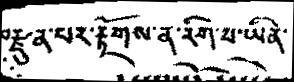བརྫུན་པར་རྟོགས་ན་རིག་པ་ཡིན་
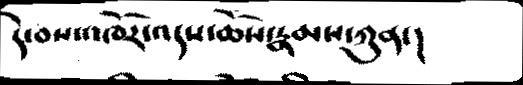དེ་བས་འཁོར་འདས་ཆོས་རྣམས་ཀུན་།
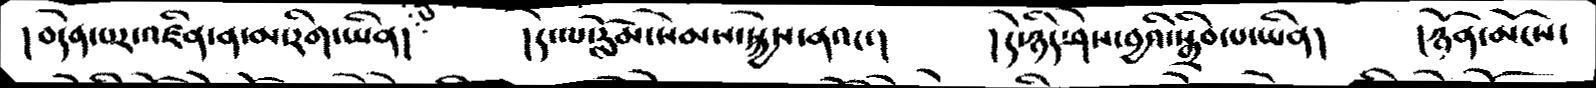།བདེན་པར་འཛིན་ན་མ་རིག་ཡིན།    །དེ་ལ་རློམ་སེམས་སྐྱེས་ནའང་།     །དེ་ཉིད་ཤེས་བྱའི་སྒྲིབ་པ་ཡིན།     །ཉོན་མོངས་
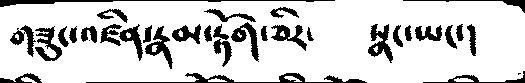གཟུང་འཛིན་རྣམ་རྟོག་ཅིར་     སྣང་ཡང་།
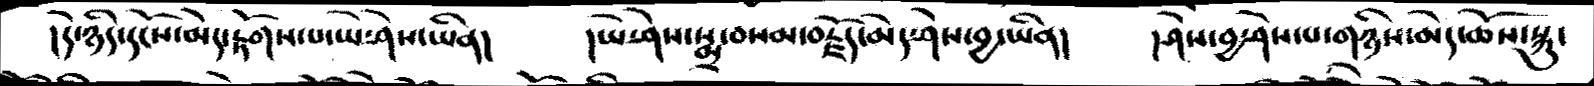།དེ་ཉིད་དངོས་མེད་རྟོགས་པ་ཡེ་ཤེས་ཡིན།     །ཡེ་ཤེས་སྨྲ་བསམ་བརྫོད་མེད་ཤེས་བྱ་ཡིན།    །ཤེས་བྱ་ཤེས་པ་གཉིས་མེད་ཆོས་སྐུ་
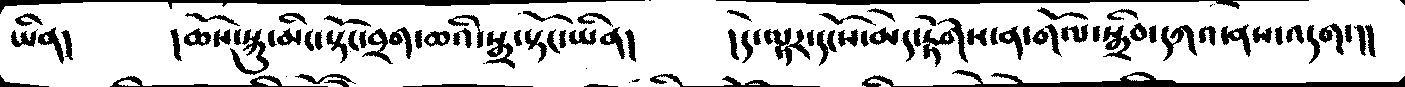ཡིན།    །ཆོས་སྐུ་མིང་སྟོང་བྲག་ཆའི་སྒྲ་སྟོང་ཡིན།     །དེ་ལྟར་དངོས་མེད་རྟོགས་ན་གོལ་སྒྲིབ་དཀའ་ནས་འདག་།།
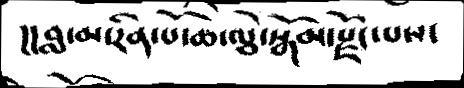།།བླ་མ་རིན་པོ་ཆེ་ལྕེ་སྒོམ་རྫོང་པས་
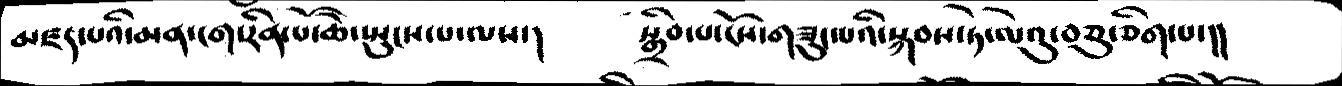མཛད་པའི་མན་ངག་རིན་པོ་ཆེ་སྤུངས་པ་ལས།    སྒྲིབ་པ་ངོས་གཟུང་པའི་སྐབས་ཏེ་ལེའུ་བཅུ་ཅིག་པ་།།
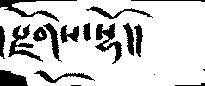རྫོགས་སྷོ།།
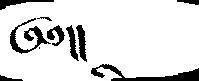༄༅།།
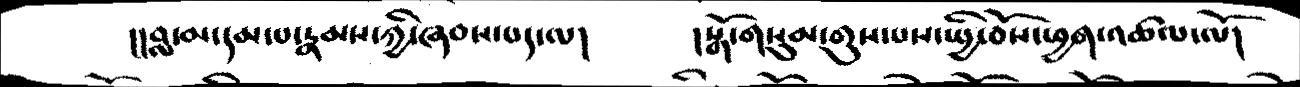།།བླ་མ་དམ་པ་རྣམས་ཀྱི་ཞབས་པད་ལ།      །སྒོ་གསུམ་གུས་པས་སྤྱི་བོས་ཕྱག་འཚལ་ལོ།
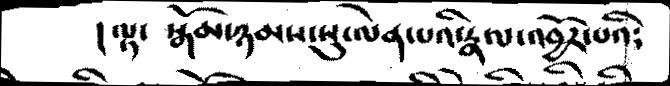།ལྟ་  སྒོམ་ཉམས་སུ་ལེན་པའི་རྣལ་འབྱོར་པའི༴
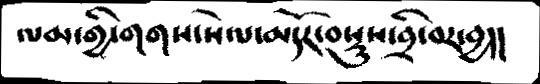ལམ་གྱི་གགས་སེལ་མདོར་བསྡུས་བྲི་བར་བྱ།།
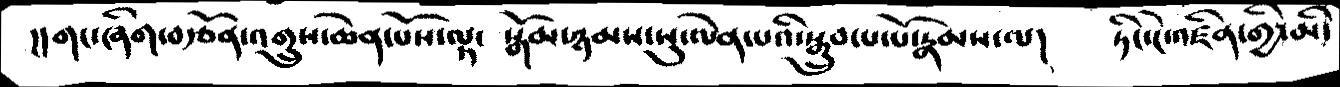།།གང་ཞིག་བརྩོན་འགྲུས་ཆེན་པོས་ལྟ་   སྒོམ་ཉམས་སུ་ལེན་པའི་སྒྲུབ་པ་པོ་རྣམས་ལ།    ཏིང་ངེ་འཛིན་གྱི་མི་
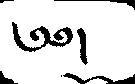༄༅།
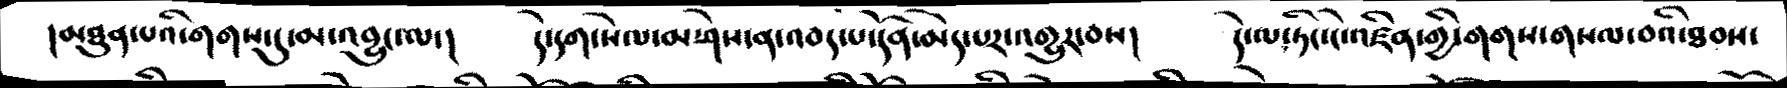།མཐུན་པའི་གགས་དུ་མ་འབྱུང་ལ་།     དེ་དག་སེལ་མ་ཤེས་མ་འབད་པ་དོན་མེད་པར་འགྱུར་བས།    དེ་ལ་ཏིང་ངེ་འཛིན་གྱི་གགས་གསལ་བའི་ཐབས་
